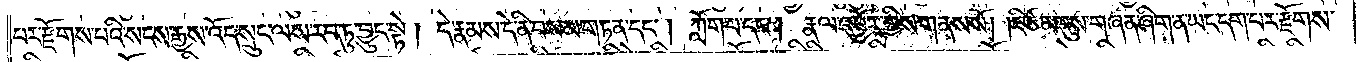པར་རྫོགས་པའི་སངས་རྒྱས་འོད་སྲུང་ལས་རབ་ཏུ་བྱུང་སྟེ། དེ་རྣམས་དེ་ནི་བསམ་གཏན་དང༌། ཀློག་པ་དང༌། རྣལ་འབྱོར་གྱིས་གནས་སོ། །ཇི་ཙམ་དུས་གཞན་ཞིག་ན་ཡང་དག་པར་རྫོགས་
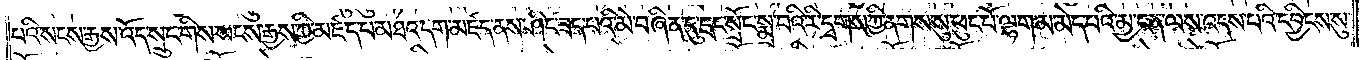པའི་སངས་རྒྱས་འོད་སྲུང་གིས་སངས་རྒྱས་ཀྱི་མཛད་པ་མཐའ་དག་མཛད་ནས་ཤིང་ཟད་པའི་མེ་བཞིན་དུ་དྲང་སྲོང་སྨྲ་བའི་རི་དྭགས་ཀྱི་ནགས་སུ་ཕུང་པོ་ལྷག་མ་མེད་པའི་མྱ་ངན་ལས་འདས་པའི་དབྱིངས་སུ་
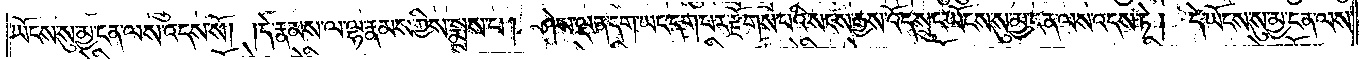ཡོངས་སུ་མྱ་ངན་ལས་འདས་སོ། །དེ་རྣམས་ལ་ལྷ་རྣམས་ཀྱིས་སྨྲས་པ། ཤེས་ལྡན་དག་ཡང་དག་པར་རྫོགས་པའི་སངས་རྒྱས་འོད་སྲུང་ཡོངས་སུ་མྱ་ངན་ལས་འདས་ཏེ། དེ་ཡོངས་སུ་མྱ་ངན་ལས་
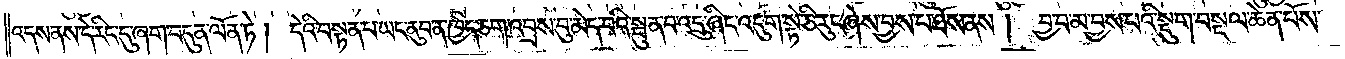འདས་ནས་དེ་རིང་དུ་ཞག་བདུན་ལོན་ཏེ། དེའི་བསྟན་པ་ཡང་ནུབ་ན་ཁྱེད་ཅག་འབྲས་བུ་མེད་པའི་སྦུན་པ་འདྲུ་ཞིང་འདུག་སྟེ་ཅི་རུང་ཞེས་བྱས་པ་ཐོས་ནས། བྱ་བ་མ་བྱས་པའི་སྡུག་བསྔལ་ཆེན་པོས་
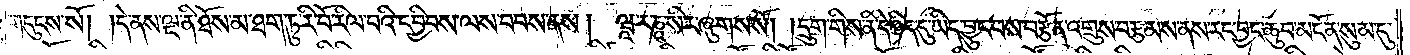གདུངས་སོ། །དེ་ནས་ལྔ་ནི་ཐོས་མ་ཐག་ཏུ་རི་བོ་རིལ་བའི་དབྱིབས་ལས་བབས་ནས། ཝཱ་ར་ཎཱ་སིར་ཞུགས་སོ། །དྲུག་གིས་ནི་དེ་ཉིད་དུ་ཡིད་བྱུང་བས་བརྩོན་འགྲུས་བརྩམས་ནས་རང་བྱང་ཆུབ་མངོན་སུམ་དུ་
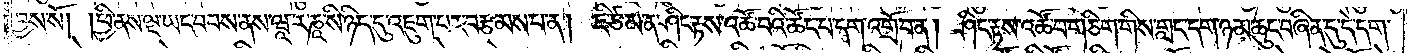བྱས་སོ། །ཕྱི་ནས་ལྔ་ཡང་བབས་ནས་ཝཱ་ར་ཎཱ་སི་ཉིད་དུ་འཇུག་པར་བརྩམས་པ་ན། ཇི་ཙམ་ན་ཤིང་རྟས་འཚོ་བའི་ཚོང་པ་དག་འགྲོ་བ་ན། ཤིང་རྟས་འཚོ་བ་གཅིག་གིས་གླང་དག་ཉམ་ཆུང་བཞིན་དུ་དེ་དག་
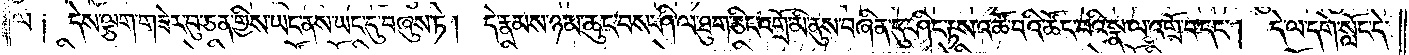ལ༑ དེས་ལྕག་གཟེར་བུ་ཅན་གྱིས་ཡང་ནས་ཡང་དུ་བཞུས་ཏེ། དེ་རྣམས་ཉམ་ཆུང་བས་ཤི་ལ་ཐུག་ཅིང་འགྲོ་མི་ནུས་བཞིན་དུ་ཤིང་རྟས་འཚོ་བའི་ཚོང་བའི་སྣ་ལ་འགྲོ་བ་དང༌། དེ་ལ་དགེ་སློང་དེ་
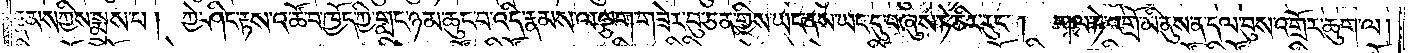རྣམས་ཀྱིས་སྨྲས་པ། ཀྱེ་ཤིང་རྟས་འཚོ་བ་ཁྱོད་ཀྱི་གླང་ཉམ་ཆུང་བ་འདི་རྣམས་ལ་ལྕག་གཟེར་བུ་ཅན་གྱིས་ཡང་ནས་ཡང་དུ་བཞུས་ཏེ་ཅིར་རུང༌། གལ་ཏེ་འགྲོ་མི་ནུས་ན་དལ་བུས་འགྲོར་ཆུག་ལ།
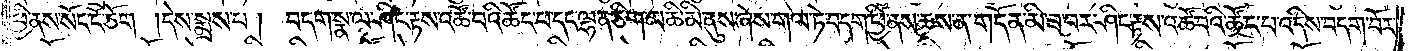ཕྱི་ནས་སོང་ངོ་ཅོག །དེས་སྨྲས་པ། བདག་སྣ་ལ་ཤིང་རྟས་འཚོ་བའི་ཚོང་པ་དང་ལྷན་ཅིག་མཆི་མི་ནུས་ཞེས་གལ་ཏེ་བདག་ཕྱི་ནས་ཆས་ན་གདོན་མི་ཟ་བར་ཤིང་རྟས་འཚོ་བའི་ཚོང་པ་འདིས་བདག་བོར་
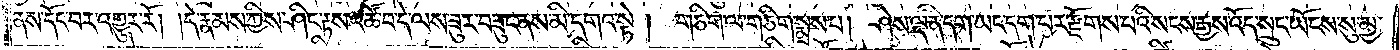ནས་དོང་བར་འགྱུར་རོ། །དེ་རྣམས་ཀྱིས་ཤིང་རྟས་འཚོ་བ་དེ་ལས་ཟུར་བཟུང་ནས་མི་དགའ་སྟེ། གཅིག་ལ་གཅིག་སྨྲས་པ། ཤེས་ལྡན་དག་ཡང་དག་པར་རྫོགས་པའི་སངས་རྒྱས་འོད་སྲུང་ཡོངས་སུ་མྱ་
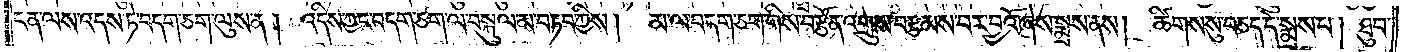ངན་ལས་འདས་ཏེ་བདག་ཅག་ལུས་ན། འདིས་ཀྱང་བདག་ཅག་ལ་བསྐུལ་མ་བཏབ་ཀྱིས། མ་ལ་བདག་ཅག་གིས་བརྩོན་འགྲུས་བརྩམས་པར་བྱའོ་ཞེས་སྨྲས་ནས། ཚིགས་སུ་བཅད་དེ་སྨྲས་པ། ཐུབ་
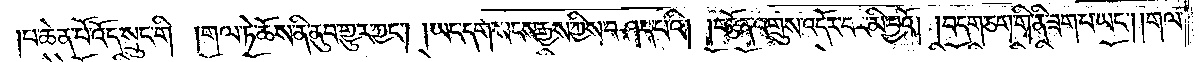པ་ཆེན་པོ་འོད་སྲུང་གི །གལ་ཏེ་ཆོས་ནི་ནུབ་གྱུར་ཀྱང༌། །ཡང་དག་སངས་རྒྱས་ཀྱིས་བཤད་པའི། །བརྩོན་འགྲུས་འདོར་བར་མི་བྱའོ། །བདག་ཅག་གི་ནི་ཟག་པ་ཡང༌། །གལ་
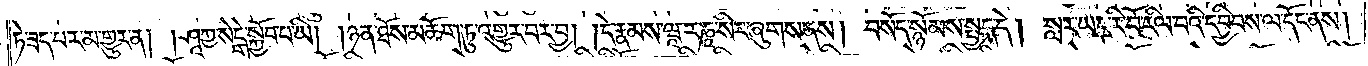ཏེ་ཟད་པར་མ་གྱུར་ན། །ཤཱཀྱ་སེངྒེ་སྐྱོབ་པ་ཡི། །ཉན་ཐོས་མཆོག་ཏུ་འགྱུར་བར་བྱ། །དེ་རྣམས་ཝཱ་ར་ཎཱ་སིར་ཞུགས་ནས། བསོད་སྙོམས་སྤྱད་དེ། སླར་ཡང་རི་བོ་རིལ་བའི་དབྱིབས་ལ་དོང་ནས།
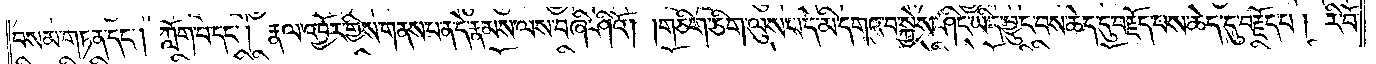བསམ་གཏན་དང༌། ཀློག་པ་དང༌། རྣལ་འབྱོར་གྱིས་གནས་པ་ན་དེ་རྣམས་ལས་བཞི་ཤིའོ། །གཅིག་ཅིག་ལུས་པ་དེ་མི་དགའ་བ་སྐྱེས་ཤིང་ཡིད་བྱུང་བས་ཆེད་དུ་བརྗོད་པས་ཆེད་དུ་བརྗོད་པ། རི་བོ་
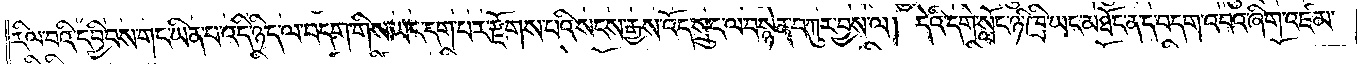རིལ་བའི་དབྱིབས་གང་ཡིན་པ་འདི་ཉིད་ལ་བདག་གིས་ཡང་དག་པར་རྫོགས་པའི་སངས་རྒྱས་འོད་སྲུང་ལ་བསྙེན་བཀུར་བྱས་ལ། དེའི་དགེ་སློང་ཉི་ཁྲི་ཡང་མཐོང་ནད་བདག་འབའ་ཞིག་འཛམ་
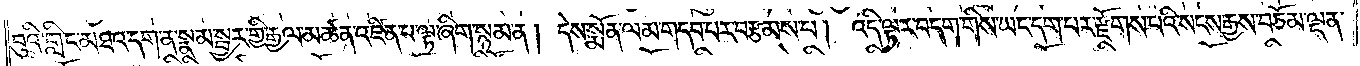བུའི་གླིང་མཐའ་དག་ན་སྣམ་སྦྱར་གྱི་རྒྱལ་མཚན་འཛིན་པ་ལྟ་ཞིག་སྙམ་ན། དེས་སྨོན་ལམ་གདབ་པར་བརྩམས་པ། འདི་ལྟར་བདག་གིས་ཡང་དག་པར་རྫོགས་པའི་སངས་རྒྱས་བཅོམ་ལྡན་
